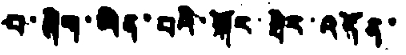པ་ཞིག་ཡིན་པའི་སྐོར་ཐེར་འདོན་
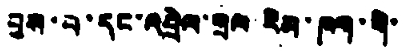བྱས་བ་དང་འབྲེལ་གྲལ་རིམ་ཁག་གི་
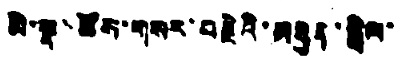མི་སྣ་ཚོས་གསར་བརྗེའི་མཐུན་སྒྲིལ་
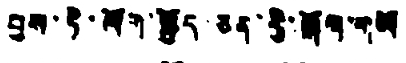བྱས་ཏེ་ལོག་སྤྱོད་ཅན་གྱི་ལྒོག་གཡོ
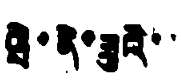ཝེ་ནེ་ཟུའི་་
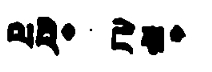ལའི་ ངེས་
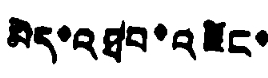མེད་འཐབ་འཛིང་
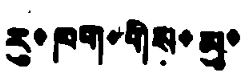རུ་ཁག་གིས་མུ་
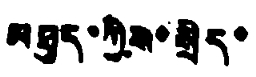མཐུད་ཀྱིས་སྲིད་
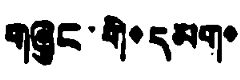གཞུང་གི་དམག་
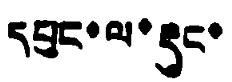དཔུང་ལ་རྡུང
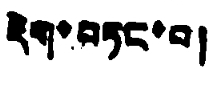རྡེག་བཏང་བ།
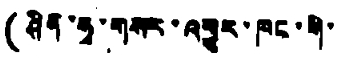(ཤིན་ཧྭ་གསར་འབྱུར་ཁང་གི་
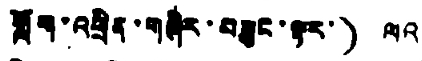གློག་འཕྲིན་གཞིར་བཟུང་ལྟར་) ལའ
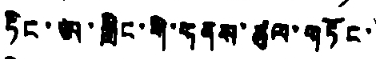ཏིང་ཨ་གླིང་གི་གནས་ཚུལ་གཏོང་
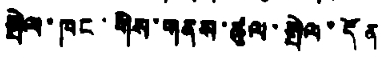སྤེལ་ཁང་གིས་གནས་ཚུལ་སྤེལ་དོན
